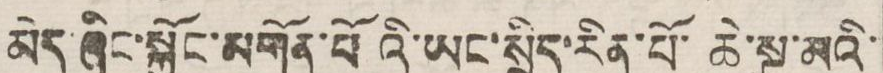མེད་ཞིང་སྐྱོང་མགོན་པོའི་ཡང་སྲིད་རིན་པོ་ཆེ་སྔ་མའི་
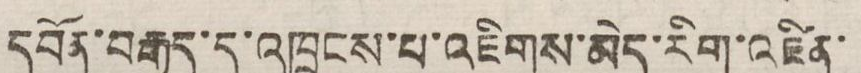དབོན་བརྒྱུད་དུ་འཁྲུངས་པ་འཇིགས་མེད་རིག་འཛིན་
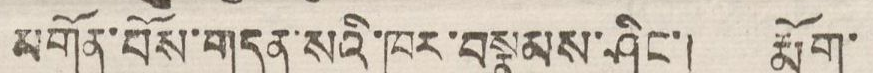མགོན་པོས་གདན་སའི་ཁུར་བསྣམས་ཤིང་། རྨོག་
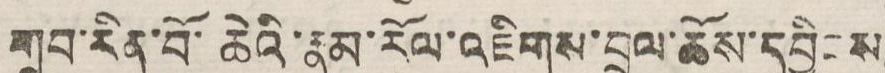གྲུབ་རིན་པོ་ཆེའི་རྣམ་རོལ་འཇིགས་བྲལ་ཆོས་དབྱིངས
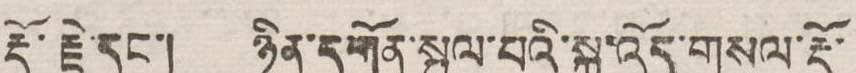རྡོ་རྗེ་དང་། ཉིན་དགོན་སྤྲུལ་བའི་སྐུ་འོད་གསལ་རྡོ་
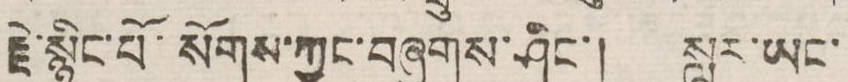རྗེ་སྙིང་པོ་སོགས་ཀྱང་བཞུགས་ཤིང་། སླར་ཡང་
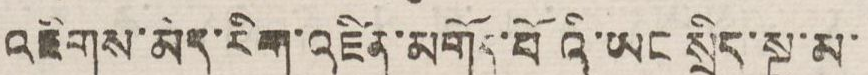འཇིགས་མེད་རིག་འཛིན་མགོད་པོའི་ཡང་སྲིད་སྔ་མ་
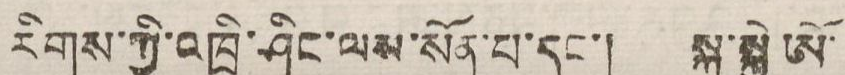རིགས་ཀྱི་འཁྲི་ཤིང་ལས་སོན་པ་དང་། སྐུ་སྐྱེ ཨོ་
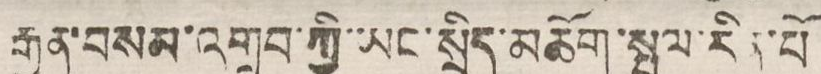རྒྱན་བསམ་འགྲུབ་ཀྱི་ཡང་སྲིད་མཆོག་སྤྲུལ་རིན་པོ
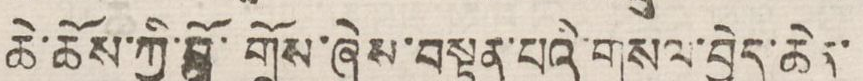ཆེ་ཆོས་ཀྱི་བློ་གྲོས་ཞེས་བསྟན་པའི་གསལ་བྱེད་ཆེན་
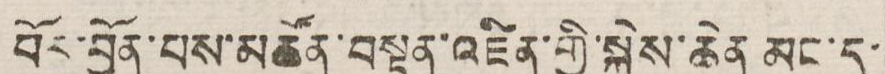པོར་བྱོན་པས་མཚོན་བསྟན་འཛིན་གྱི་སྐྱེས་ཆེན་མང་དུ་
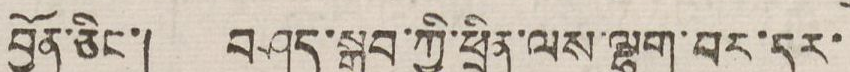བྱོན་ཅིང་། བཤད་སྒྲུབ་ཀྱི་ཕྲིན་ལས་ལྷག་བར་དར་
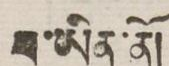བ་ཡིན་ནི།
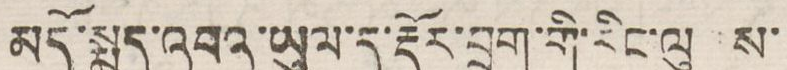མདོ་སྨད་འབའ་ཡུལ་དུ་རྡོར་བྲག་གི་རིང་ལུགས་
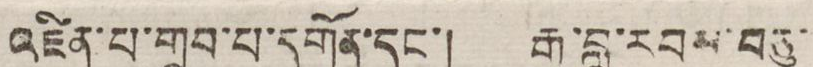འཛིན་པ་གྲུབ་པ་དགོན་དང་། རྒྱ་བླ་རབས་བཅུ་
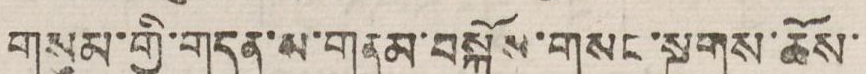གསུམ་གྱི་གདན་མ་གནམ་བསྐོས་གསང་སྔགས་ཆོས་
